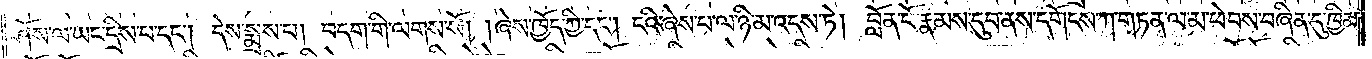ཤོས་ལ་ཡང་དྲིས་པ་དང༌། དེས་སྨྲས་པ། བདག་གི་ལགས་སོ། །ཞེས་ཁྱོད་ཀྱི་དང༌། ངའི་ཞེས་པ་ལ་ཉི་མ་འདས་ཏེ། བློན་པོ་རྣམས་དུབ་ནས་དགོངས་ཀ་གཏན་ལ་མ་ཕེབས་བཞིན་དུ་ཁྱིམ་
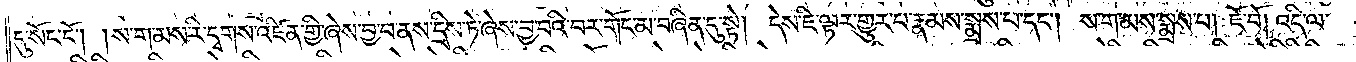དུ་སོང་ངོ༌། །ས་ག་མས་རི་དྭགས་འཛིན་གྱི་ཞེས་བྱ་བ་ནས་དྲིས་ཏེ་ཞེས་བྱ་བའི་བར་གོང་མ་བཞིན་དུ་སྟེ། དེས་ཇི་ལྟར་གྱུར་པ་རྣམས་སྨྲས་པ་དང༌། ས་ག་མས་སྨྲས་པ། ཇོ་བོ། འདི་ལ་
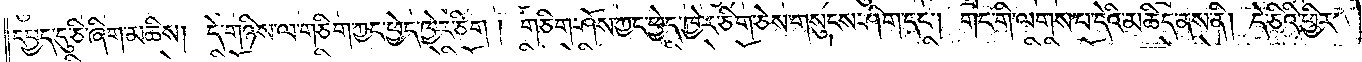དཔྱད་དུ་ཅི་ཞིག་མཆིས། དེ་གཉིས་ལ་གཅིག་ཀྱང་ཕྱེད་ཁྱེར་ཅིག། གཅིག་ཤོས་ཀྱང་ཕྱེད་ཁྱེར་ཅིག་ཅེས་གསུངས་ཤིག་དང༌། གང་གི་ལགས་པ་དེའི་མཆིད་ནས་ནི། དེ་ཅིའི་ཕྱིར་
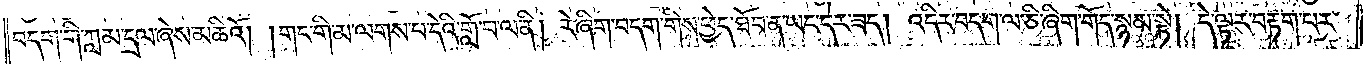བདག་གི་ཀླམ་དྲལ་ཞེས་མཆིའོ། །གང་གི་མ་ལགས་པ་དེའི་གློ་བ་ལ་ནི། རེ་ཞིག་བདག་གིས་བྱེད་ཐོབ་ན་ཡང་དེར་ཟད། འདིར་བདག་ལ་ཅི་ཞིག་གོད་སྙམ་སྟེ། དེ་ལྟར་བརྟག་པར་
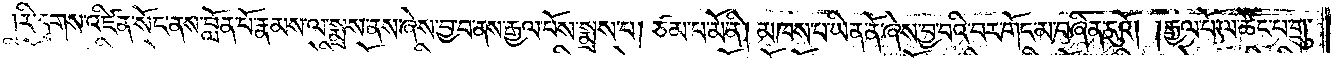བགྱིའོ། །རི་དྭགས་འཛིན་སོང་ནས་བློན་པོ་རྣམས་ལ་སྨྲས་ནས་ཞེས་བྱ་བ་ནས་རྒྱལ་པོས་སྨྲས་པ། ཙམ་པ་མོ་ནི། མཁས་པ་ཡིན་ནོ་ཞེས་བྱ་བའི་བར་གོང་མ་བཞིན་དུའོ། །རྒྱལ་པོ་ལ་ཚོང་པ་གྲུ་
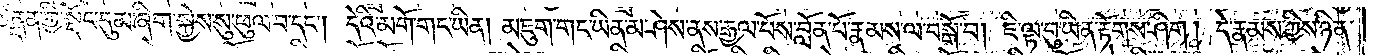བས་ཙནྡན་གྱི་སྡོང་དུམ་ཞིག་སྐྱེས་སུ་ཕུལ་བ་དང༌། དེའི་མགོ་གང་ཡིན། མཇུག་གང་ཡིན་མ་ཤེས་ནས་རྒྱལ་པོས་བློན་པོ་རྣམས་ལ་བསྒོ་བ། ཇི་ལྟ་བུ་ཡིན་རྟོགས་ཤིག། དེ་རྣམས་ཀྱིས་ཉིན་
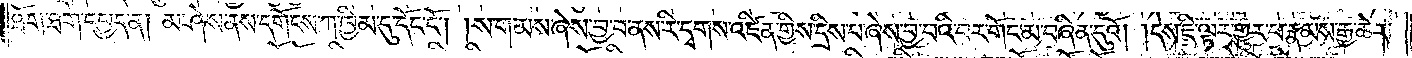ཐོག་ཐག་དཔྱད་ན། མ་ཤེས་ནས་དགོངས་ཀ་ཁྱིམ་དུ་དོང་ངོ༌། །ས་ག་མས་ཞེས་བྱ་བ་ནས་རི་དྭགས་འཛིན་གྱིས་དྲིས་པ་ཞེས་བྱ་བའི་བར་གོང་མ་བཞིན་དུའོ། །དེས་ཇི་ལྟར་གྱུར་པ་རྣམས་རྒྱ་ཆེར་
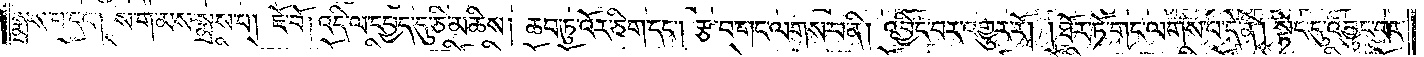སྨྲས་པ་དང༌། ས་ག་མས་སྨྲས་པ། ཇོ་བོ། འདི་ལ་དཔྱད་དུ་ཅི་མཆིས། ཆབ་ཏུ་འོར་ཅིག་དང༌། རྩ་བ་གང་ལགས་པ་ནི། འབྱིང་བར་འགྱུར་རོ། །ཐོར་ཏོ་གང་ལགས་པ་དེ་ནི། སྟེང་དུ་འབྱུང་བར་
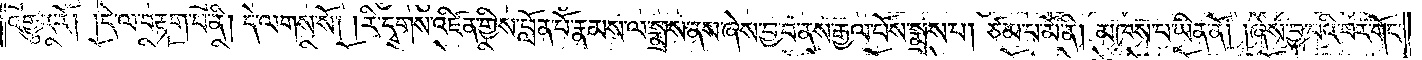འགྱུར་རོ། །དེ་ལ་བརྟག་པ་ནི། དེ་ལགས་སོ། །རི་དྭགས་འཛིན་གྱིས་བློན་པོ་རྣམས་ལ་སྨྲས་ནས་ཞེས་བྱ་བ་ནས་རྒྱལ་པོས་སྨྲས་པ། ཙམ་པ་མོ་ནི། མཁས་པ་ཡིན་ནོ། །ཞེས་བྱ་བའི་བར་གོང་
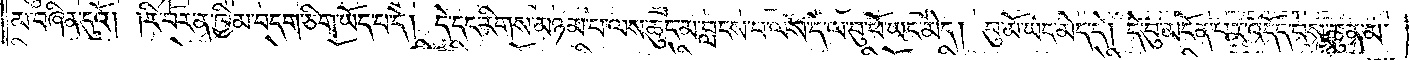མ་བཞིན་དུའོ། །རི་བོར་ན་ཁྱིམ་བདག་ཅིག་ཡོད་པ་དེ། དེ་དང་རིགས་མཉམ་པ་ལས་ཆུང་མ་བླངས་པ་ལས་དེ་ལ་བུ་ཕོ་ཡང་མེད། བུ་མོ་ཡང་མེད་དེ། དེ་བུ་མངོན་པར་འདོད་པས་ཆུན་མ་
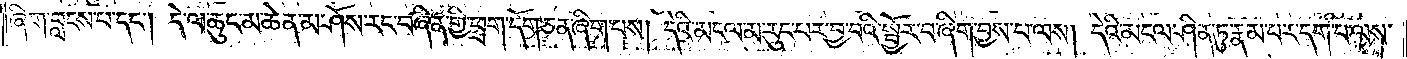ཞིག་བླངས་པ་དང༌། དེ་ལ་ཆུང་མ་ཆེན་མ་ཤོས་རང་བཞིན་གྱི་ཕྲག་དོག་ཅན་ཞིག་པས། དེའི་མངལ་མ་རུང་བར་བྱ་བའི་སྦྱོར་བ་ཞིག་བྱས་པ་ལས། དེའི་མངལ་ཤིན་ཏུ་རྣམ་པར་དག་པ་ལས་
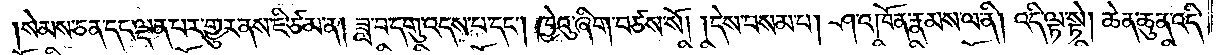སེམས་ཅན་དང་ལྡན་པར་གྱུར་ནས་ཇི་ཙམ་ན། ཟླ་བ་དགུ་འདས་པ་དང༌། ཁྱེའུ་ཞིག་བཙས་སོ། །དེས་བསམ་པ། ཤ་འཁོན་རྣམས་ལ་ནི། འདི་ལྟ་སྟེ། ཆེན་ཆུན་འདི་
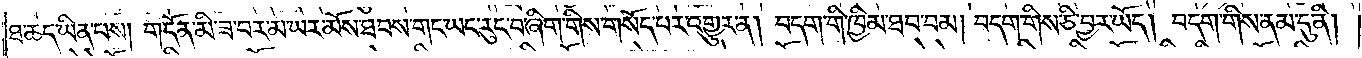ཐ་ཆད་ཡིན་པས། གདོན་མི་ཟ་བར་མ་ཡར་མོས་ཐབས་གང་ཡང་རུང་བ་ཞིག་གིས་གསོད་པར་འགྱུར་ན། བདག་གི་ཁྱིམ་ཐབ་བམ། བདག་གིས་ཅི་བྱར་ཡོད། བདག་གིས་ནམ་དུ་ནི།
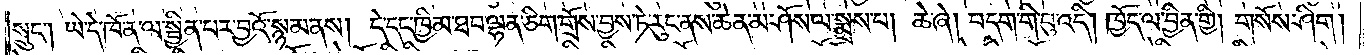སྲུང༌། ཡེ་དེ་ཁོ་ན་ལ་སྦྱིན་པར་བྱའོ་སྙམ་ནས། དེ་དང་ཁྱིམ་ཐབ་ལྷན་ཅིག་གྲོས་བྱས་ཏེ་རུང་ནས་ཆེན་མ་ཤོས་ལ་སྨྲས་པ། ཆེ་ཞེ། བདག་གི་བུ་འདི། ཁྱོད་ལ་བྱིན་གྱི། གསོས་ཤིག།
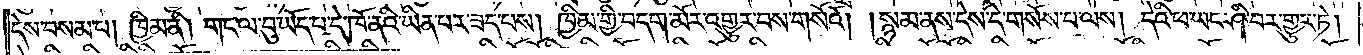དེས་བསམ་པ། ཁྱིམ་ནི། གང་ལ་བུ་ཡོད་པ་དེ་ཁོ་ནའི་ཡིན་པར་ཟད་པས། ཁྱིམ་གྱི་བདག་མོར་འགྱུར་བས་གསོའོ། །སྙམ་ནས་དེས་དེ་གསོས་པ་ལས། དེའི་ཕ་ཡང་ཤི་བར་གྱུར་ཏེ།
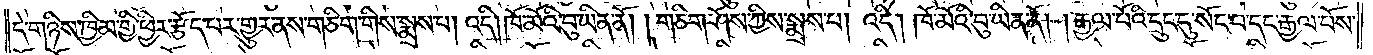དེ་གཉིས་ཁྱིམ་གྱི་ཕྱིར་རྩོད་པར་གྱུར་ནས་གཅིག་གིས་སྨྲས་པ། འདི། ཁོ་མོའི་བུ་ཡིན་ནོ། །གཅིག་ཤོས་ཀྱིས་སྨྲས་པ། འདི། ཁོ་མོའི་བུ་ཡིན་ནོ། །རྒྱལ་པོའི་དྲུང་དུ་སོང་བ་དང་རྒྱལ་པོས་
